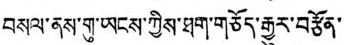བསལ་ནས་གུ་ཡངས་ཀྱིས་ཐག་གཅོད་རྒྱུར་བརྩོན་
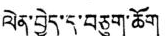ལེན་བྱེད་དུ་བཅུག་ཆོག
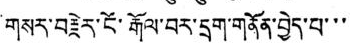གསར་བརྗེར་ངོ་རྒོལ་བར་དྲག་གནོན་བྱེད་པ་་་
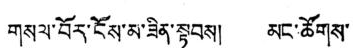གསལ་བོར་ངོས་མ་ཟིན་སྟབས། མང་ཚོགས་
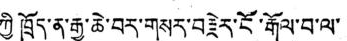ཀྱི ཁྲོད་ན་རྒྱ་ཆེ་བར་གསར་བརྗེར་ངོ་རྒོལ་བ་ལ་
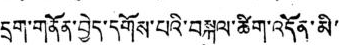དྲག་གནོན་བྱེད་དགོས་པའི་བསྐུལ་ཚིག་འདོན་མི་
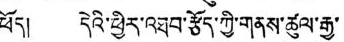ཕོད། དེའི་ཕྱིར་འཐབ་རྩོད་ཀྱི་གནས་ཚུལ་རྒྱ་
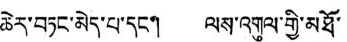ཆེར་བཏང་མེད་པ་དང་། ལས་འགུལ་གྱི་མཐོ་
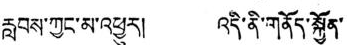རླབས་ཀྱང་མ་འཕྱུར། འདི་ནི་གནོད་སྐྱོན་
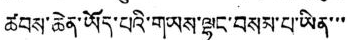ཚབས་ཆེན་ཡོད་པའི་གཡས་ལྷུང་བསམ་པ་ཡིན་་་
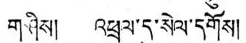གཤིས། འཕྲལ་དུ་སེལ་དགོས།
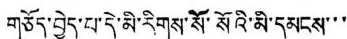གཅོད་བྱེད་པ་དེ་མི་རིགས་སོ་སོའི་མི་དམངས་་་
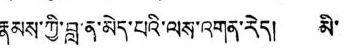རྣམས་ཀྱི་བླ་ན་མེད་པའི་ལས་འགན་རེད། མི་
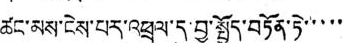ཚང་མས་ངེས་པར་འཕྲལ་དུ་བྱ་སྤྱོད་བཏོན་ཏེ་་་་་
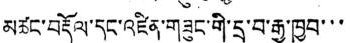མཚང་བརྡོལ་དང་འཛིན་གཟུང་གི་དྲ་བ་རྒྱ་ཁྱབ་་་
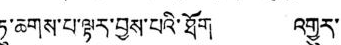ཏུ་ཆགས་པ་ལྟར་བྱས་པའི་ཐོག འགྱུར་
